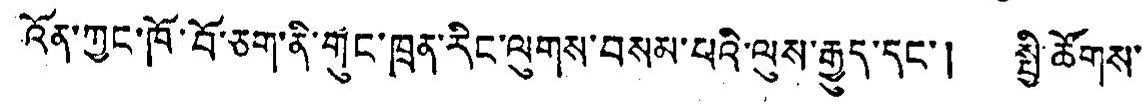འོན་ཀྱང་ཁོ་བོ་ཅག་ནི་གུང་ཁྲན་རིང་ལུགས་བསམ་པའི་ལུས་རྒྱུད་དང་། སྤྱི་ཚོགས་
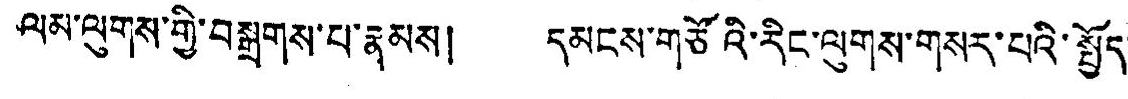ལམ་ལུགས་གྱི་བསྒྲགས་པ་རྣམས། དམངས་གཙོའི་རིང་ལུགས་གསར་པའི་སྤྱོད་
